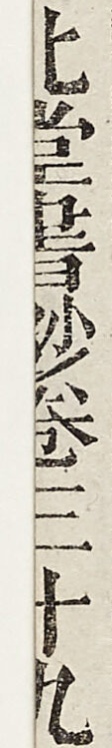北堂書鈔卷第三十九
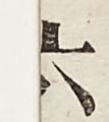六
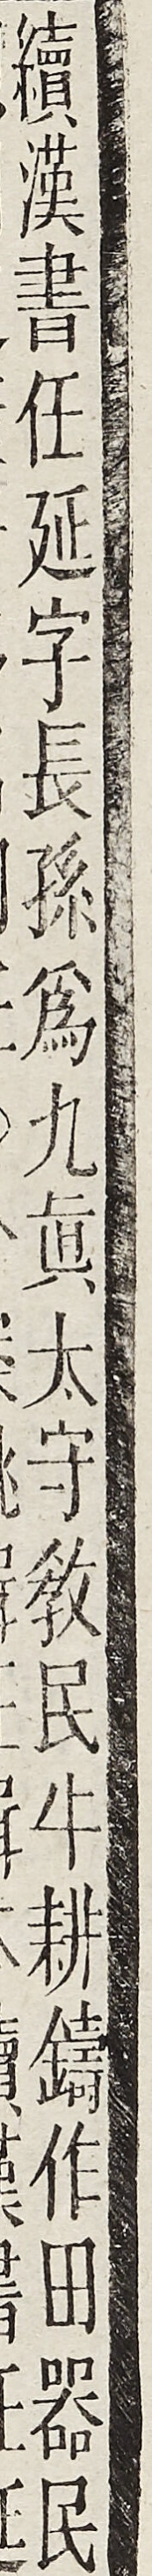續漢書任延字長孫為九真太守教民牛耕鑄作田器民
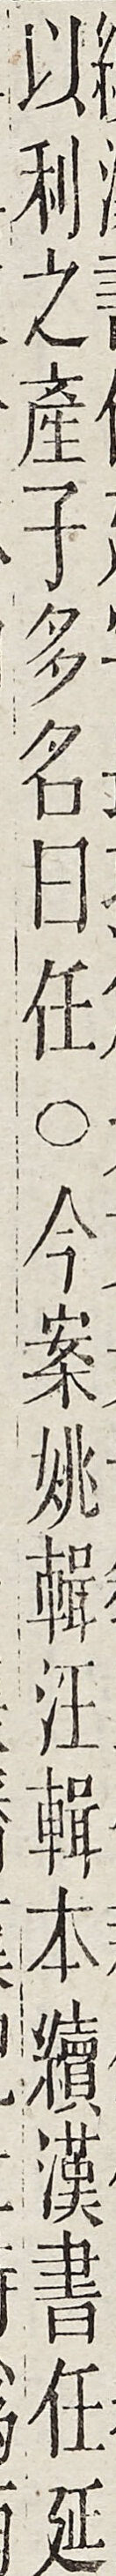以利之產子多名曰任○今案姚輯汪輯本續漢書任廷
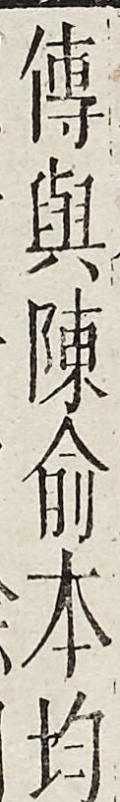傳與陳俞本均
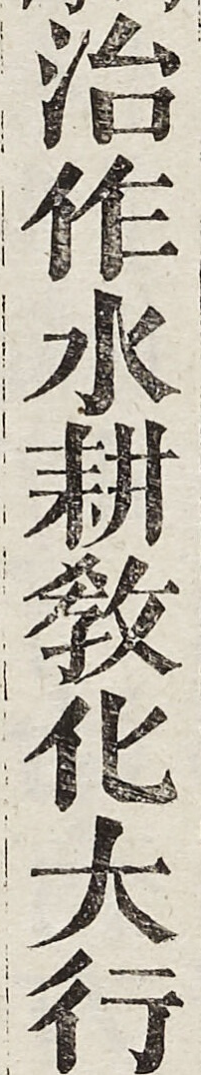治作水耕教化大行
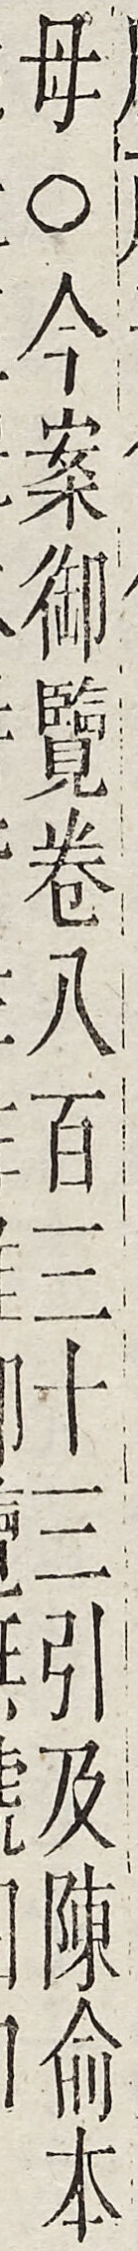母○今案御覽卷八百三十三引及陳俞本
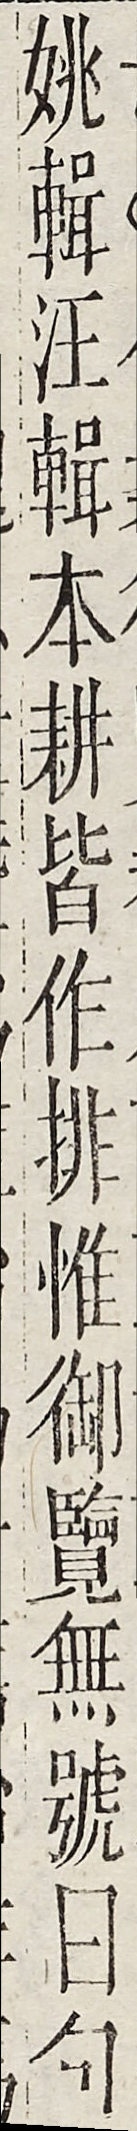姚輯汪輯本耕皆作排惟御覽無號曰句
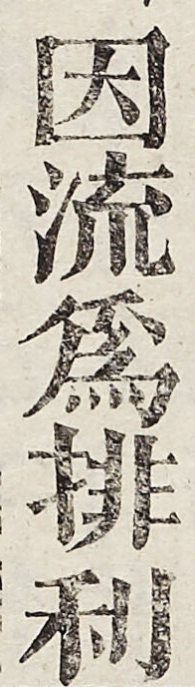因流為排利
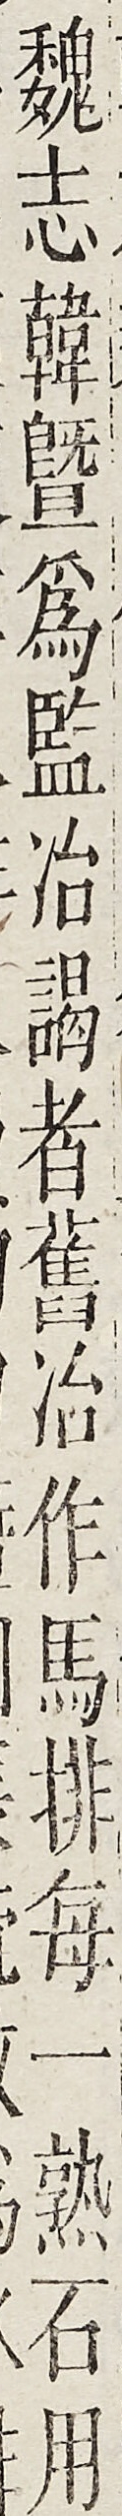魏志韓暨為監治謁者舊冶作馬排每一熟石用
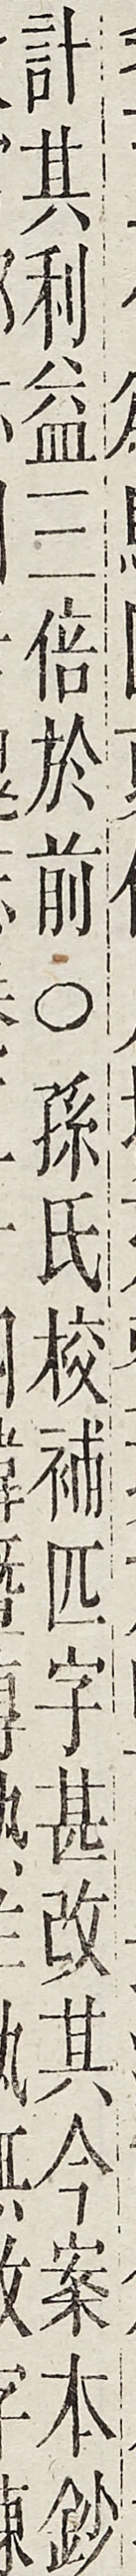計其利益二倍於前○孫氏校補匹字甚改其今案本鈔
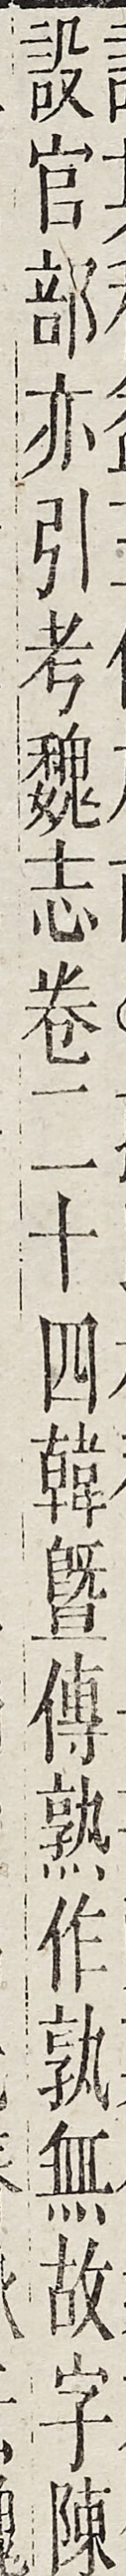設官部亦引考魏志卷二十四韓暨傳熟作孰無故字陳
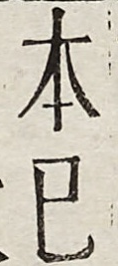本巳
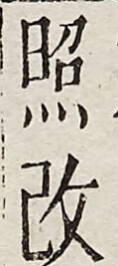照改
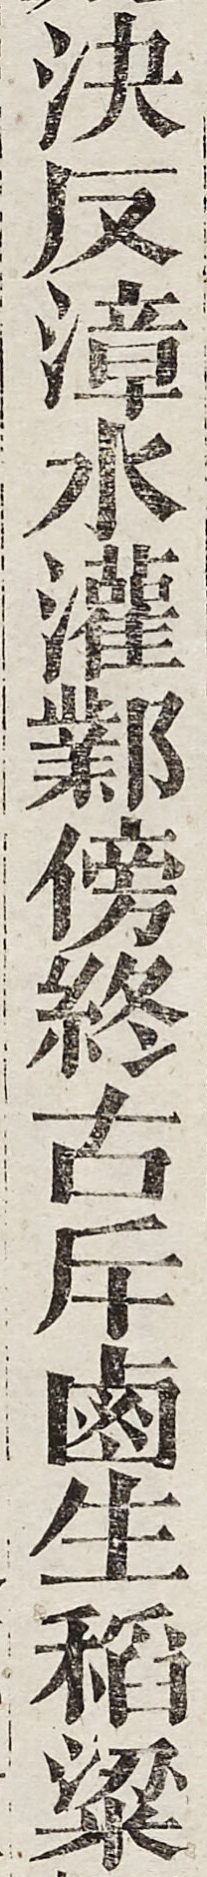決反漳水灌鄴傍終古斥鹵生稻梁
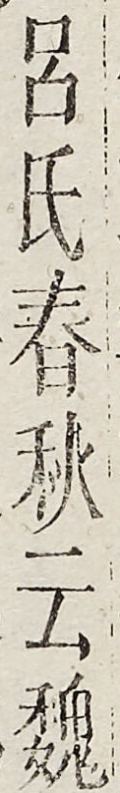呂氏春秋云魏
